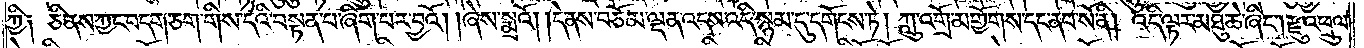ཀྱི༑ ཅི་ནས་ཀྱང་བདག་ཅག་གིས་དེའི་བསྟན་པ་ཞིག་པར་བྱའོ། །ཞེས་སྨྲའོ། །དེ་ནས་བཅོམ་ལྡན་འདས་འདི་སྙམ་དུ་དགོངས་ཏེ། ཀླུ་འགྲོ་མགྱོགས་དང་ནབ་སོ་ནི། འདི་ལྟར་མཐུ་ཆེ་ཞིང༌། རྫུ་འཕྲུལ་
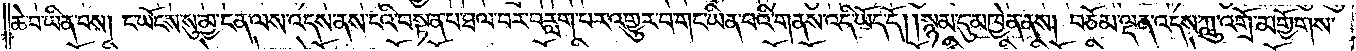ཆེ་བ་ཡིན་པས། ང་ཡོངས་སུ་མྱ་ངན་ལས་འདས་ནས་ངའི་བསྟན་པ་ཐལ་བར་བརླག་པར་འགྱུར་བ་གང་ཡིན་པའི་གནས་འདི་ཡོད་དོ། །སྙམ་དུ་མཁྱེན་ནས། བཅོམ་ལྡན་འདས་ཀླུ་འགྲོ་མགྱོགས་
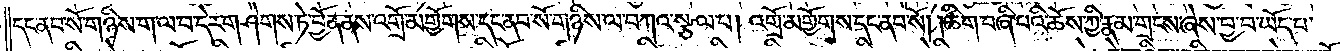དང་ནབ་སོ་གཉིས་ག་ལ་བ་དེར་གཤེགས་ཏེ་བྱོན་ནས་འགྲོ་མགྱོགས་དང་ནབ་སོ་གཉིས་ལ་བཀའ་སྩལ་པ། འགྲོ་མགྱོགས་དང་ནབ་སོ། །ཚིག་བཞི་པའི་ཆོས་ཀྱི་རྣམ་གྲངས་ཞེས་བྱ་བ་ཡོད་པ་
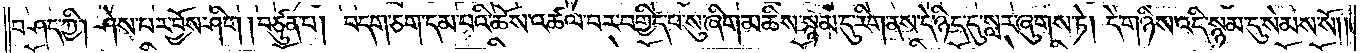བཤད་ཀྱི། ཤེས་པར་བྱོས་ཤིག །བཙུན་པ། བདག་ཅག་དམ་པའི་ཆོས་འཚལ་བར་བགྱིད་པ་སུ་ཞིག་མཆིས་སྙམ་དུ་རིག་ནས་དེ་ཉིད་དུ་སླར་ཞུགས་ཏེ། དེ་གཉིས་འདི་སྙམ་དུ་སེམས་སོ༎
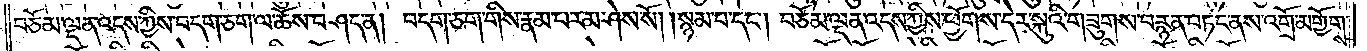བཅོམ་ལྡན་འདས་ཀྱིས་བདག་ཅག་ལ་ཆོས་བཤད་ན། བདག་ཅག་གིས་རྣམ་པར་མ་ཤེས་སོ། །སྙམ་པ་དང༌། བཅོམ་ལྡན་འདས་ཀྱིས་ཕྱོགས་དེར་སྐུའི་གཟུགས་བརྙན་བཏང་ནས་འགྲོ་མགྱོགས་
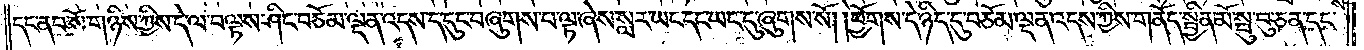དང་ནབ་སོ་གཉིས་ཀྱིས་དེ་ལ་བལྟས་ཤིང་བཅོམ་ལྡན་འདས་ད་དུང་བཞུགས་པ་ལྟ་ཞེས་སླར་ཡང་དང་ཡང་དུ་ཞུགས་སོ། །ཕྱོགས་དེ་ཉིད་དུ་བཅོམ་ལྡན་འདས་ཀྱིས་གནོད་སྦྱིན་མོ་སྤུ་བུ་ཅན་དང་
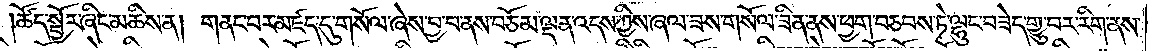།ཚོད་སྦྱོར་ཞིང་མཆིས་ན། གནང་བར་མཛད་དུ་གསོལ་ཞེས་བྱ་བ་ནས་བཅོམ་ལྡན་འདས་ཀྱིས་ཞལ་ཟས་གསོལ་ཟིན་ནས་ཕྱག་བཅབས་ཏེ་ལྷུང་བཟེད་གྱུ་བར་རིག་ནས་
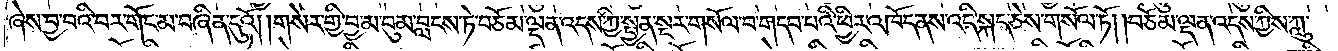ཞེས་བྱ་བའི་བར་གོང་མ་བཞིན་དུའོ། །གསེར་གྱི་བྱ་མ་བུམ་བླངས་ཏེ་བཅོམ་ལྡན་འདས་ཀྱི་སྤྱན་སྔར་གསོལ་བ་གདབ་པའི་ཕྱིར་འཁོད་ནས་འདི་སྐད་ཅེས་གསོལ་ཏོ། །བཅོམ་ལྡན་འདས་ཀྱིས་ཀླུ་
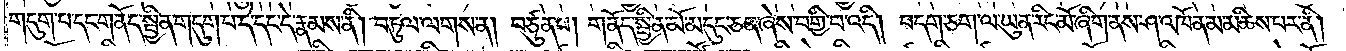གདུག་པ་དང་གནོད་སྦྱིན་གདུག་པ་དེ་དང་དེ་རྣམས་ནི། བཏུལ་ལགས་ན། བཙུན་པ། གནོད་སྦྱིན་མོ་མདུང་ཅན་ཞེས་བགྱི་བ་འདི། བདག་ཅག་ལ་ཡུན་རིང་མོ་ཞིག་ནས་ཤ་འཁོན་མ་མཆིས་པར་ནི།
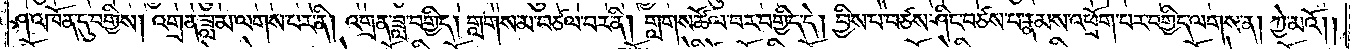ཤ་འཁོད་དུ་བགྱིས། འགྲན་ཟླ་མ་ལགས་པར་ནི། འགྲན་ཟླ་བགྱིད། གླགས་མ་བཙལ་བར་ནི། གླགས་ཚོལ་བར་བགྱིད་དེ། བྱིས་པ་བཙས་ཤིང་བཙས་པ་རྣམས་འཕྲོག་པར་བགྱིད་ལགས་ན། ཀྱེ་མའོ། །
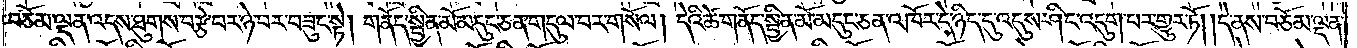བཅོམ་ལྡན་འདས་ཐུགས་བརྩེ་བར་ཉེ་བར་བཟུང་སྟེ། གནོད་སྦྱིན་མོ་མདུང་ཅན་གདུལ་བར་གསོལ། དེའི་ཚེ་གནོད་སྦྱིན་མོ་མདུང་ཅན་འཁོར་དེ་ཉིད་དུ་འདུས་ཤིང་འདུག་པར་གྱུར་ཏོ། །དེ་ནས་བཅོམ་ལྡན་
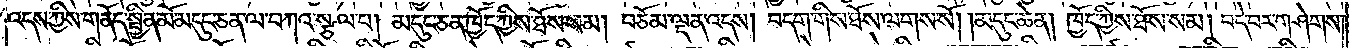འདས་ཀྱིས་གནོད་སྦྱིན་མོ་མདུང་ཅན་ལ་བཀའ་སྩལ་པ། མདུང་ཅན་ཁྱོད་ཀྱིས་ཐོས་སམ། བཅོམ་ལྡན་འདས། བདག་གིས་ཐོས་ལགས་སོ། །མདུང་ཆེན། ཁྱོད་ཀྱིས་ཐོས་སམ། བདེ་བར་གཤེགས་
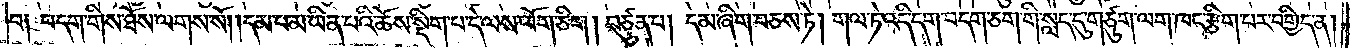པ༑ བདག་གིས་ཐོས་ལགས་སོ། །དམ་པ་མ་ཡིན་པའི་ཆོས་སྡིག་པ་དེ་ལས་ལོག་ཅིག །བཙུན་པ། དམ་ཞིག་བཅས་ཏེ། གལ་ཏེ་འདི་དག་བདག་ཅག་གི་སླད་དུ་གཙུག་ལག་ཁང་རྩིག་པར་བགྱིད་ན།
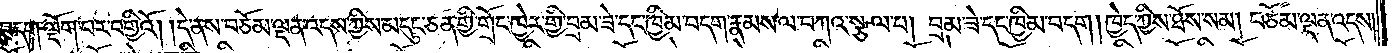བདག་ལྡོག་པར་བགྱིའོ། །དེ་ནས་བཅོམ་ལྡན་འདས་ཀྱིས་མདུང་ཅན་གྱི་གྲོང་ཁྱེར་གྱི་བྲམ་ཟེ་དང་ཁྱིམ་བདག་རྣམས་ལ་བཀའ་སྩལ་པ། བྲམ་ཟེ་དང་ཁྱིམ་བདག །ཁྱེད་ཀྱིས་ཐོས་སམ། བཅོམ་ལྡན་འདས།
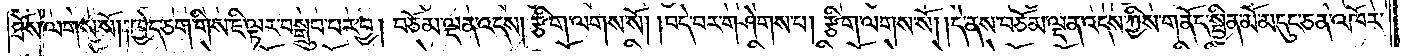ཐོས་ལགས་སོ། །ཁྱེད་ཅག་གིས་ཇི་ལྟར་བསྒྲུབ་པར་བྱ། བཅོམ་ལྡན་འདས། རྩིག་ལགས་སོ། །བདེ་བར་གཤེགས་པ། རྩིག་ལགས་སོ། །དེ་ནས་བཅོམ་ལྡན་འདས་ཀྱིས་གནོད་སྦྱིན་མོ་མདུང་ཅན་འཁོར་
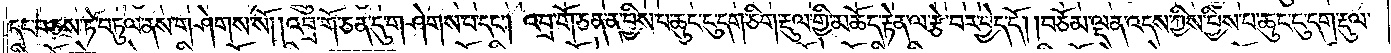དང་བཅས་ཏེ་བཏུལ་ནས་གཤེགས་སོ། །འབྲ་གོ་ཅན་དུ་གཤེགས་པ་དང༌། འབྲ་གོ་ཅན་ན་བྱིས་པ་ཆུང་ངུ་དག་ཅིག་རྡུལ་གྱི་མཆོད་རྟེན་ལ་རྩེ་བར་བྱེད་དོ། །བཅོམ་ལྡན་འདས་ཀྱིས་བྱིས་པ་ཆུང་ངུ་དག་རྡུལ་
